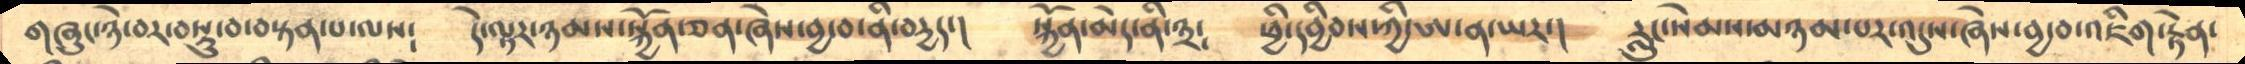གཞུང་ཉེ་བར་བསྡུ་བ་བསྟན་པ་ལས༴     དེ་ལྟར་ཉམས་སྐྱོན་ཅན་ཞེས་བྱ་བ་ནི་བདྱད་།    སྐྱོན་མེད་ནི་༣༴    ཕྱི་དབྱིབས་ཀྱི་ཨ་ན་ཡར་།   རླུང་སེམས་མཉམ་པར་འདུས་ཞེས་བྱ་བ་འཇིག་རྟེན་
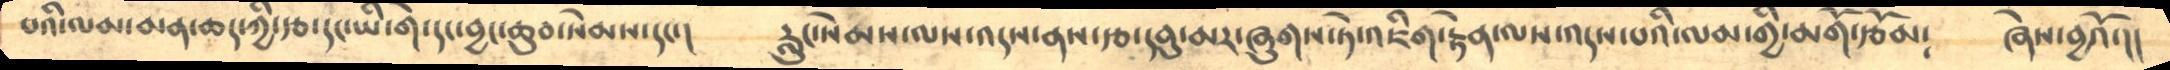པའི་ལམ་མན་ཆད་ཀྱི་རྩ་དང་ཡི་གེ་དང་བྱང་ཆུབ་སེམས་དང་།      རླུང་སེམས་ལས་འདས་ནས་རྩ་དབུ་མར་ཞུགས་ཏེ་འཇིག་རྟེན་ལས་འདས་པའི་ལམ་གྱི་མགོ་རྩོམ༴   ཞེས་བྱའོ་།།
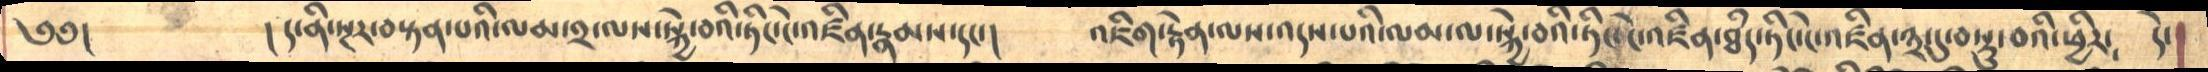༄༅།      ། ད་ནི་སྔར་བསྟན་པའི་ལམ་༢་ལས་སྐྱེ་བའི་ཏིང་ངེ་འཛིན་རྣམས་དང་།    འཇིག་རྟེན་ལས་འདས་པའི་ལམ་ལ་སྐྱེ་བའི་ཏིང་ངེ་འཛིན་ཐཾད་ཏིང་ངེ་འཛིན་༣་དུ་བསྡུ་བའི་ཕྱིར༴  དེ་
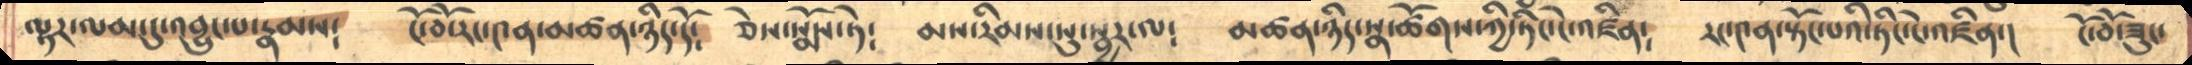ལྟར་ལམ་དུ་འབྱུང་པ་རྣམས༴    ངོ་བོ་རང་༤ན་མཚན་ཉིད་དོ༴   ཅེས་སྨོས་ཏེ༴   མས་རིམས་སུ་སྦྱར་ལ༴   མཚན་ཉིད་སྣ་ཚོགས་ཀྱི་ཏིང་ངེ་འཛིན༴   རང་༤ན་སྟོང་པའི་ཏིང་ངེ་འཛིན་།   ངོ་བོ་ཟུང་
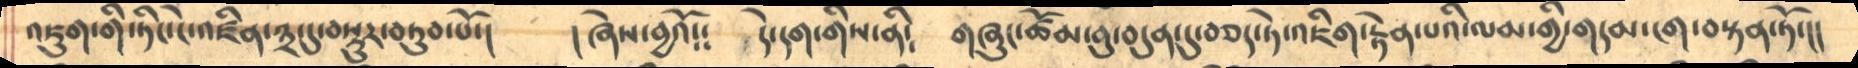འཇུག་གི་ཏིང་ངེ་འཛིན་༣་དུ་བསྡུར་བཏུབ་པོ་།   ། ཞེས་བྱའོ༴༴   དེ་དག་གིས་ནི༴    གཞུང་ཚོམ་བུ་བདུན་དུ་བཅད་ཏེ་འཇིག་རྟེན་པའི་ལམ་གྱི་གདམ་ངག་བསྟན་ཏོ་།།
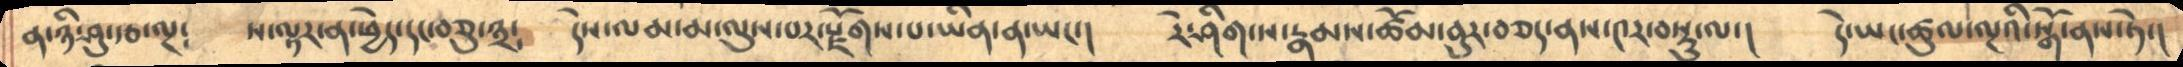ན་ཉི་ཤུ་རྩ་ལྔ༴  ས་ལྟར་ན་ཕྱེད་དང་བཅུ་༣༴     དེས་ལམ་མ་ལུས་པར་རྫོགས་པ་ཡིན་ན་ཡང་།    རེ་ཤིག་ས་རྣམས་ཚོམ་བུར་བཅད་ནས་༤ར་བསྡུ་ལ་།    དེ་ཡང་ཚུལ་ལྔའི་སྒོ་ནས་ཏེ་།
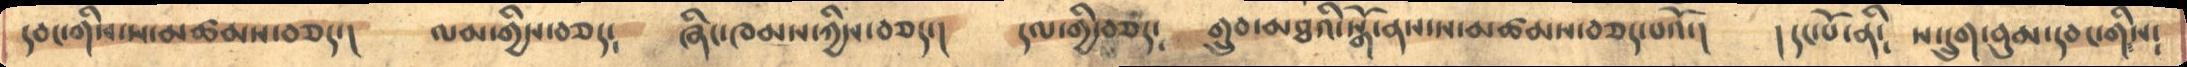དབང་གིས་མཚམས་བཅད་།    ལམ་གྱིས་བཅད༴   ཞིང་ཁམས་ཀྱིས་བཅད་།   དལ་གྱི་བཅད༴   གྲུབ་མཐའི་སྒོ་ནས་ས་མཚམས་བཅད་པའོ་།    །དང་པོ་ནི༴   ས་དྲུག་བུམ་དབང་གིས༴
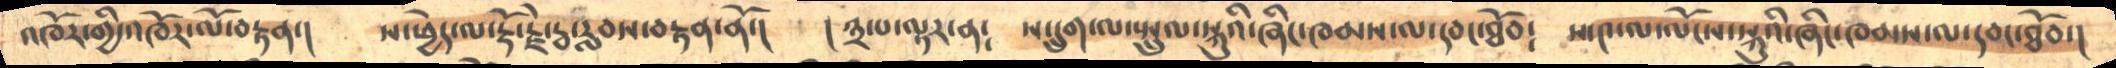འཁོར་གྱི་འཁོར་ལོ་བརྟན་།    ས་ཕྱེད་ལ་རྡོ་རྗེ་རྦ་རླབས་བརྟན་ནོ་།   ། ༣་པ་ལྟར་ན༴   ས་དྲུག་ལ་སྤྲུལ་སྐུའི་ཞིང་ཁམས་ལ་དབང་ཐོབ༴   ས་༤་ལ་ལོངས་སྐུའི་ཞིང་ཁམས་ལ་དབང་ཐོབ་།
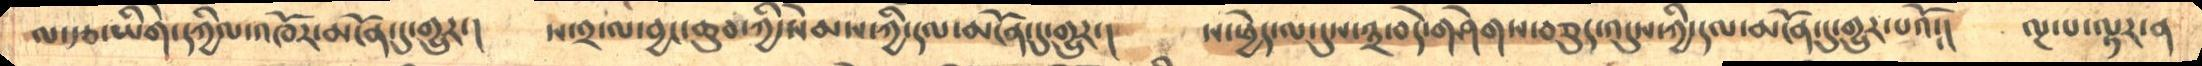ལ་རྩ་ཡིགེ་དཀྱིལ་འཁོར་མངོན་དུ་གྱུར་།     ས་༢་ལ་བྱང་ཆུབ་ཀྱི་སེམས་ཀྱི་དལ་མངོན་དུ་གྱུར་།     ས་ཕྱེད་ལ་དུས་༣་བདེ་གཤེགས་བཅུད་འདུས་ཀྱི་དལ་མངོན་དུ་གྱུར་པའོ༴།   ལྔ་པ་ལྟར་ན
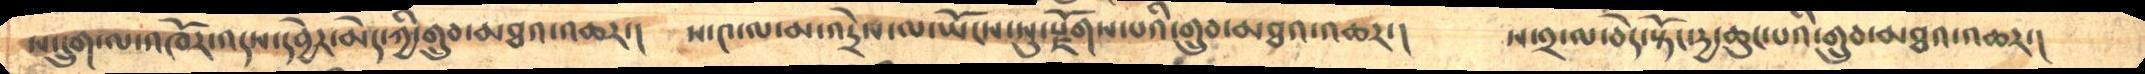ས་དྲུག་ལ་འཁོར་འདས་དབྱེར་མེད་ཀྱི་གྲུབ་མཐའ་འཆར་།    ས་༤་ལ་མ་འདྲེས་ལ་ཡོངས་སུ་རྫོགས་པའི་གྲུབ་མཐའ་འཆར་།    ས་༢་ལ་བདེ་སྟོང་དྱ་ཆུང་པའི་གྲུབ་མཐའ་འཆར་།
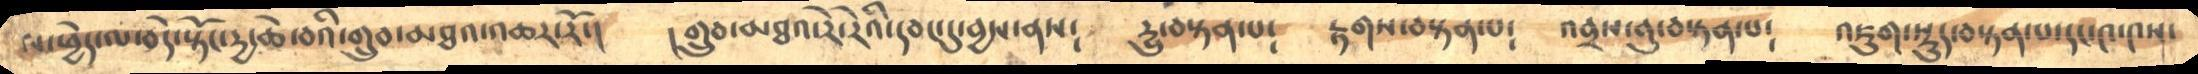ལ་ཕྱེད་ལ་བདེ་སྟོང་དྱ་ཆེ་བའི་གྲུབ་མཐའ་འཆར་རོ་།    །གྲུབ་མཐའ་རེ་རེའི་དབང་དུ་བྱས་ནས༴    དྱུ་བསྟན་པ༴  རྟགས་བསྟན་པ༴    འབྲས་བུ་བསྟན་པ༴    འཇུག་སྡུད་བསྟན་པ་དང་༤་༤ས་
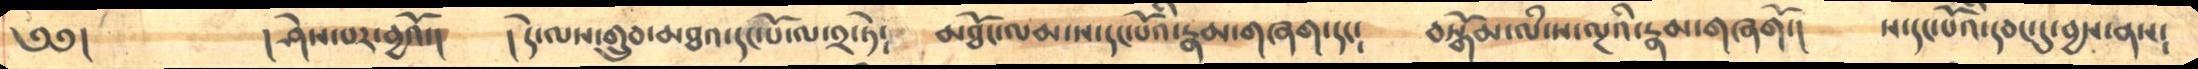༄༅།         ། ཤེས་པར་བྱའོ་།    ། དེ་ལས་གྲུབ་མཐའ་དང་པོ་ལ་༢་ཏེ༴   མཐོང་ལམ་ས་དང་པོའི་རྣམ་གཞག་དང༴   བསྒོམ་ལཾ་ས་ལྔའི་རྣམ་གཞགོ་།   ས་དང་པོའི་དབང་དུ་བྱས་ནས༴
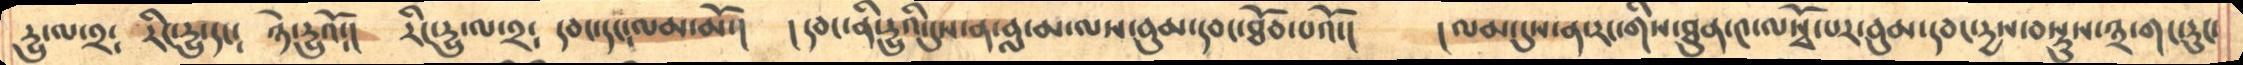དྱུ་ལ་༢༴  རིང་དྱུ་དང༴  ཉེ་དྱུའོ༴།  རིང་དྱུ་ལ་༢༴  དབང་དང༴ལམ་མོ་།   །དབང་ནི་དྱུའི་དུས་ན་བླ་མ་ལས་བུམ་དབང་ཐོབ་པའོ་།   །ལམ་དུས་ན་རང་གི་ཐུན་༤་ལསྭོ་པར་བུམ་དབང་དྱས་བསྡུས་༣་གང་རུང་
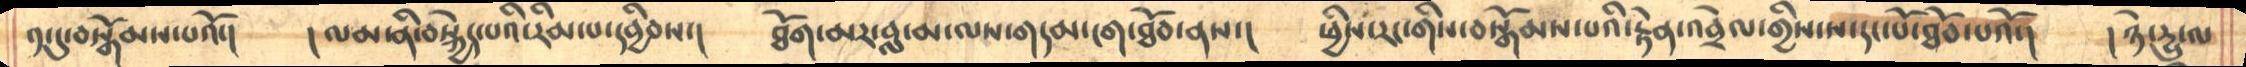༡་དུ་བསྒོམས་པའོ་།    །ལམ་ནི་བསྐྱེད་པའི་རིམ་པ་དབྱིབས་།    ཐོག་མར་བླ་མ་ལས་གདམ་ངག་ཐོབ་ནས་།   ཕྱིས་རང་གིས་བསྒོམས་པའི་རྟེན་འབྲེལ་གྱིས་ས་དང་པོ་ཐོབ་པའོ་།   །ཉེ་དྱུ་ལ
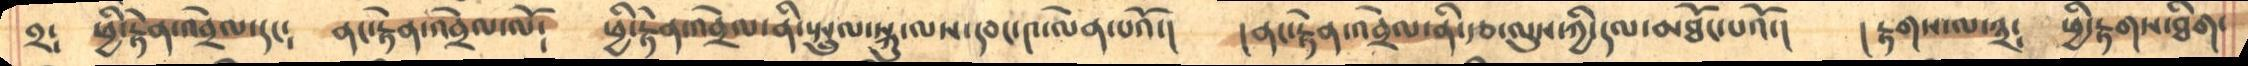༢༴   ཕྱི་རྟེན་འབྲེལ་དང༴    ནང་རྟེན་འབྲེལ་ལོ༴   ཕྱི་རྟེན་འབྲེལ་ནི་སྤྲུལ་སྐུ་ལས་དབང་༤་ལེན་པའོ་།    །ནང་རྟེན་འབྲེལ་ནི་རྩ་ལུས་ཀྱི་དལ་མཐོང་པའོ་།   ། རྟགས་ལ་༣༴  ཕྱི་རྟགས་ཐིག་
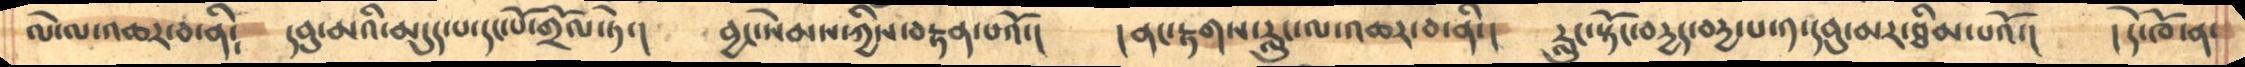ལེ་ལ་འཆར་བ་ནི༴   དབུ་མའི་མདུད་པ་དང་པོ་གྲོལ་ཏེ་།    བྱང་སེམས་ཀྱིས་བརྟན་པའོ་།   །ནང་རྟགས་རླུང་ལ་འཆར་བ་ནི་།   རླུང་སྟོང་བདྱད་བདྱ་པ་༡་དབུ་མར་ཐིམ་པའོ་།   །དེ་ཁོ་ན་
